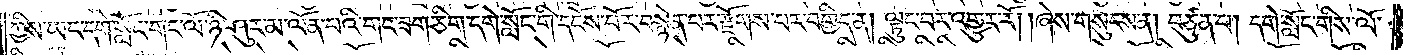ཀྱིས་ཡང་དགེ་སློང་གང་ལོ་ཉིས་ཤུར་མ་ལོན་པའི་གང་ཟག་ཅིག་དགེ་སློང་གི་དངོས་པོར་བསྙེན་པར་རྫོགས་པར་བགྱིད་ན། ལྟུང་བར་འགྱུར་རོ། །ཞེས་གསུངས་ན། བཙུན་པ། དགེ་སློང་གིས་ལོ་
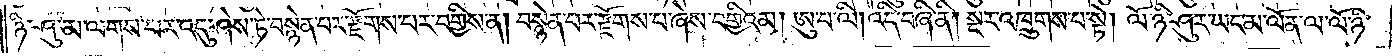ཉི་ཤུ་ལ་ལགས་པར་འདུ་ཤེས་ཏེ་བསྙེན་པར་རྫོགས་པར་བགྱིས་ན། བསྙེན་པར་རྫོགས་པ་ཞེས་བགྱིའམ། ཨུ་པ་ལི། འདི་བཞི་ནི། སྔར་འཁྲུགས་པ་སྟེ། ལོ་ཉི་ཤུར་ཡང་མ་ལོན་ལ་ལོ་ཉི་
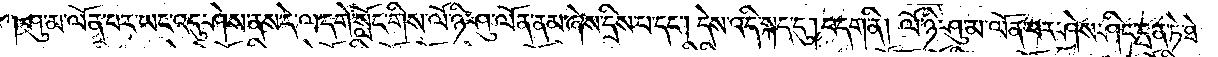ཤུ་མ་ལོན་པར་ཡང་འདུ་ཤེས་ནས་དེ་ལ་དགེ་སློང་གིས་ལོ་ཉི་ཤུ་ལོན་ནམ་ཞེས་དྲིས་པ་དང༌། དེས་འདི་སྐད་དུ། བདག་ནི། ལོ་ཤི་ཤུ་མ་ལོན་པར་ཤེས་ཤིང་དྲན་ཏེ་ཐེ་
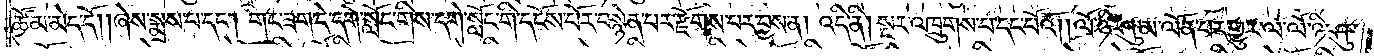ཚོམ་མེད་དོ། །ཞེས་སྨྲས་པ་དང༌། གང་ཟག་དེ་དགེ་སློང་གིས་དགེ་སློང་གི་དངོས་པོར་བསྙེན་པར་རྫོགས་པར་བྱས་ན། འདི་ནི། སྔར་འཁྲུགས་པ་དང་པོའོ། །ལོ་ཉི་ཤུ་མ་ལོན་པར་འགྱུར་པ་ལ་ལོ་ཉི་ཤུ་
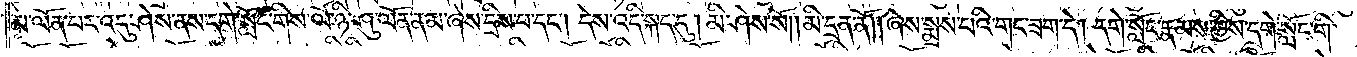མ་ལོན་པར་འདུ་ཤེས་ནས་དགེ་སློང་གིས་ལོ་ཉི་ཤུ་ལོན་ནམ་ཞེས་དྲིས་པ་དང༌། དེས་འདི་སྐད་དུ། མི་ཤེས་སོ། །མི་དྲན་ནོ། །ཞེས་སྨྲས་པའི་གང་ཟག་དེ། དགེ་སློང་རྣམས་ཀྱིས་དགེ་སློང་གི་
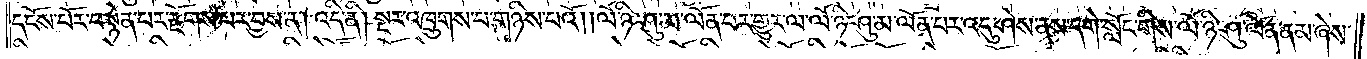དངོས་པོར་བསྙེན་པར་རྫོགས་པར་བྱས་ན། འདི་ན། སྔར་འཁྲུགས་པ་གཉིས་པའོ། །ལོ་ཉི་ཤུ་མ་ལོན་པར་གྱུར་པ་ལོ་ཉི་ཤུ་མ་ལོན་པར་འདུ་ཤེས་ནས་དགེ་སློང་གིས་ལོ་ཉི་ཤུ་ལོན་ནམ་ཞེས་
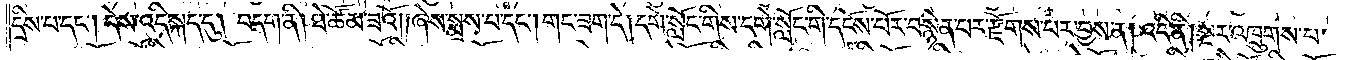དྲིས་པ་དང༌། དེས་འདི་སྐད་དུ། བདག་ནི། ཐེ་ཚོམ་ཟའོ། །ཞེས་སྨྲས་པ་དང༌། གང་ཟག་དེ། དགེ་སློང་གིས་དགེ་སློང་གི་དངོས་པོར་བསྙེན་པར་རྫོགས་པར་བྱས་ན། འདི་ནི། སྔར་འཁྲུགས་པ་
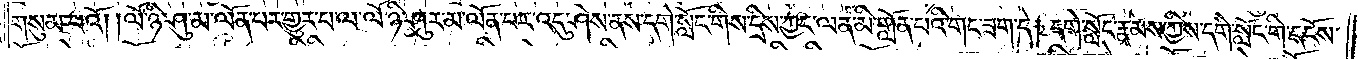གསུམ་པའོ། །ལོ་ཉི་ཤུ་མ་ལོན་པར་གྱུར་པ་ལ་ལོ་ཉི་ཤུར་མ་ལོན་པར་འདུ་ཤེས་ནས་དགེ་སློང་གིས་དྲིས་ཀྱང་ལན་ནི་མི་གློན་པའི་གང་ཟག་དེ། དགེ་སློང་རྣམས་ཀྱིས་དགེ་སློང་གི་དངོས་
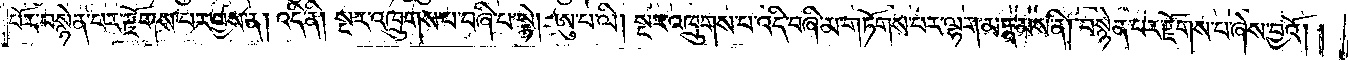པོར་བསྙེན་པར་རྫོགས་པར་བྱས་ན། འདི་ནི། སྔར་འཁྲུགས་པ་བཞི་པ་སེ། ཨུ་པ་ལི། སྔར་འཁྲུགས་པ་འདི་བཞི་མ་གཏོགས་པར་ལྷག་མ་རྣམས་ནི། བསྙེན་པར་རྫོགས་པ་ཞེས་བྱའོ། །
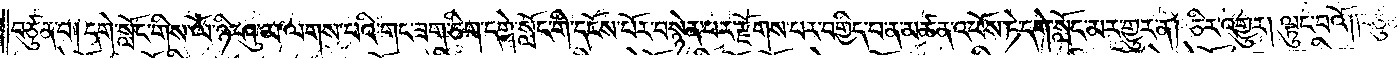བཙུན་པ། དགེ་སློང་གིས་ལོ་ཉི་ཤུ་མ་ལགས་པའི་གང་ཟག་ཅིག་དགེ་སློང་གི་དངོས་པོར་བསྙེན་པར་རྫོགས་པར་བགྱིད་པ་ན་མཚན་འཕོས་ཏེ་དགེ་སློང་མར་གྱུར་ན། ཅིར་འགྱུར། ལྟུང་བའོ། །བཙུན་
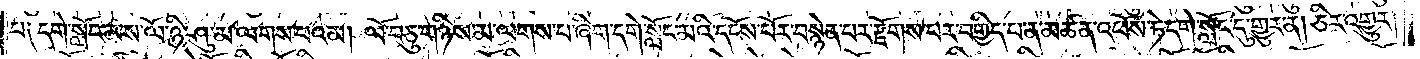པ༑ དགེ་སློང་མས་ལོ་ཤི་ཤུ་མ་ལགས་པའམ། ལོ་བཅུ་གཉིས་མ་ལགས་པ་ཞིག་དགེ་སློང་མའི་དངོས་པོར་བསྙེན་པར་རྫོགས་པར་བགྱིད་པ་ན་མཚན་འཕོས་ཏེ་དགེ་སློང་དུ་གྱུར་ན། ཅིར་འགྱུར།
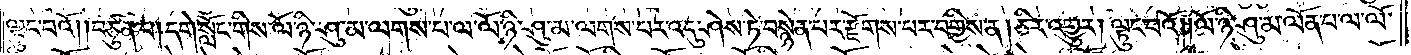ལྟུང་བའོ། །བཙུན་པ། དགེ་སློང་གིས་ལོ་ཉི་ཤུ་མ་ལགས་པ་ལ་ལོ་ཉི་ཤུ་མ་ལགས་པར་འདུ་ཤེས་ཏེ་བསྙེན་པར་རྫོགས་པར་བགྱིས་ན། ཅིར་འགྱུར། ལྟུང་བའོ། །ལོ་ཉི་ཤུ་མ་ལོན་པ་ལ་ལོ་
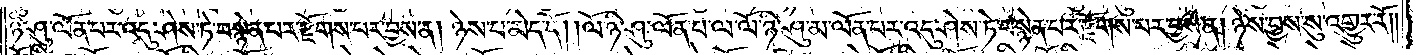ཉི་ཤུ་ལོན་པར་འདུ་ཤེས་ཏེ་བསྙེན་པར་རྫོགས་པར་བྱས་ན། ཉེས་པ་མེད་དོ། །ལོ་ཉི་ཤུ་ལོན་པ་ལ་ལོ་ཉི་ཤུ་མ་ལོན་པར་འདུ་ཤེས་ཏེ་བསྙེན་པར་རྫོགས་པར་བྱས་ན། ཉེས་བྱས་སུ་འགྱུར་རོ༎
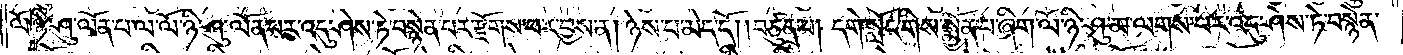ལོ་ཉི་ཤུ་ལོན་པ་ལ་ལོ་ཉི་ཤུ་ལོན་པར་འདུ་ཤེས་ཏེ་བསྙེན་པར་རྫོགས་པར་བྱས་ན། ཉེས་པ་མེད་དོ། །བཙུན་པ། དགེ་སློང་གིས་སྨྱོན་པ་ཞིག་ལོ་ཉི་ཤུ་མ་ལགས་པར་འདུ་ཤེས་ཏེ་བསྙེན་
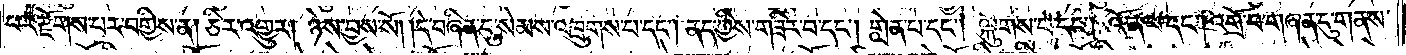པར་རྫོགས་པར་བགྱིས་ན། ཅིར་འགྱུར། ཉེས་བྱས་སོ། །དེ་བཞིན་དུ་སེམས་འཁྲུགས་པ་དང༌། ནད་ཀྱིས་གཟིར་བ་དང༌། གླེན་པ་དང༌། ལྐུགས་པ་དང༌། འོན་པ་དང༌། འགྲོ་བ་གཞན་དུ་གནས་
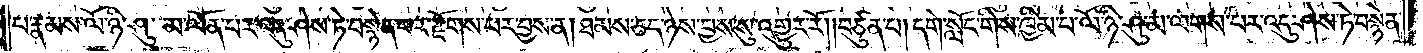པ་རྣམས་ལོ་ཉི་ཤུ་མ་ལོན་པར་འདུ་ཤེས་ཏེ་བསྙེན་པར་རྫོགས་པར་བྱས་ན། ཐམས་ཅད་ཉེས་བྱས་སུ་འགྱུར་རོ། །བཙུན་པ། དགེ་སློང་གིས་ཁྱིམ་པ་ལོ་ཉི་ཤུ་མ་ལགས་པར་འདུ་ཤེས་ཏེ་བསྙེན་
